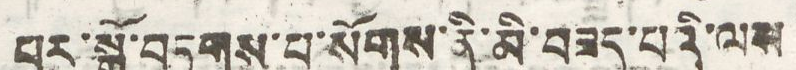པར་སྒྲོ་བཏགས་པ་སོགས་ནི་མི་བཟད་པའི་ལས
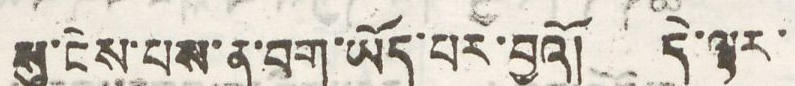སུ་ངེས་པས་ན་བག་ཡོད་པར་བྱའོ། དེ་ལྟར་
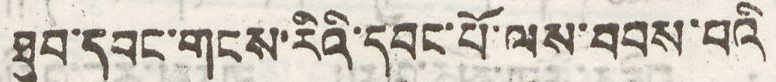ཐུབ་དབང་གངས་རིའི་དབང་པོ་ལས་བབས་པའི
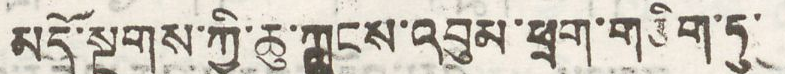མདོ་སྔགས་ཀྱི་ཆུ་ཀླུངས་འབུམ་ཕྲག་གཅིག་ཏུ་
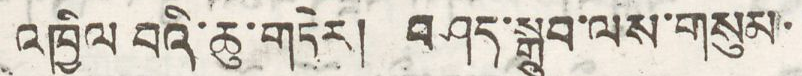འཁྱིལ བའི་ཆུ་གཏེར། བཤད་སྒྲུབ་ལས་གསུམ་
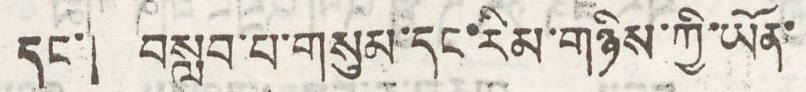དང་། བསླབ་པ་གསུམ་དང་རིམ་གཉིས་ཀྱི་ཡོན་
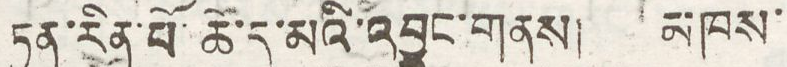ཏན་རིན་པོ་ཆོ་དུ་མའི་འབྱུང་གནས། མཁས་
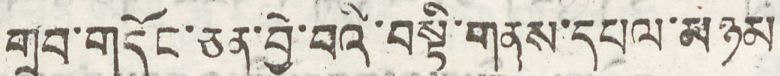གྲུབ་གདོང་ཅན་བྱེ་བའི་བསྟི་གནས་དཔལ་མཉམ
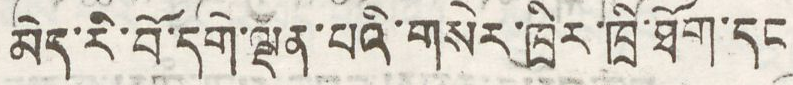མེད་རི་བོ་དགེ་སྡན་པའི་གསེར་ཁྲིར་ཁྲི་ཐོག་དང
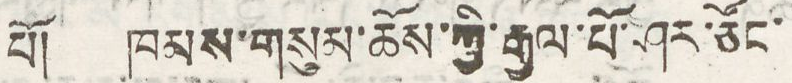པོ། ཁམས་གསུམ་ཆོས་ཀྱི་རྒྱལ་པོ་ཤར་ཙོང་
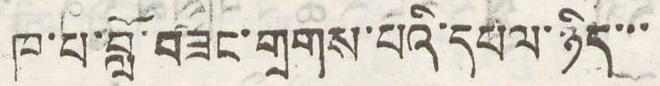ཁ་པ་བློ་བཟང་གྲགས་པའི་དཔལ་ཉིད་་་
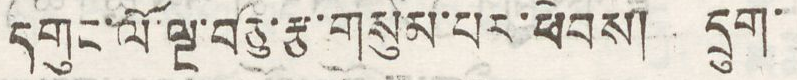དགུང་ལོ་ལྔ་བཅུ་རྩ་གསུམ་པར་ཕེབས། དྲུག་
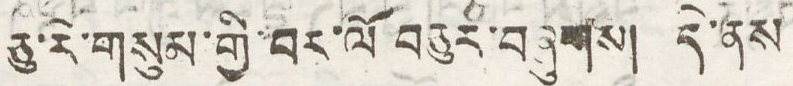ཅུ་རེ་གསུམ་གྱི་བར་པོ་བཅུར་བཞུགས། དེ་ནས
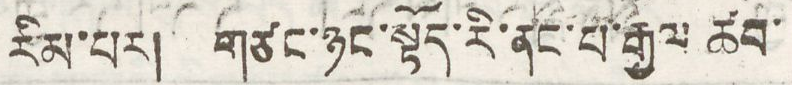རིམ་པར། གཙང་ཉང་སྟོད་རི་ནང་པ་རྒྱལ ཚབ་
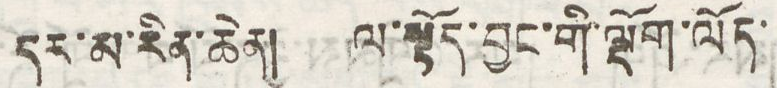དར་མ་རིན་ཆེན། ལ་སྟོད་བྱང་གི་ལྡོག་ལོད་
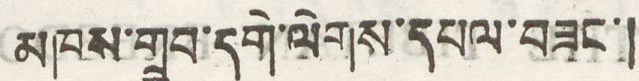མཁས་གྲུབ་དགེ་ལེགས་དཔལ་བཟང་།
